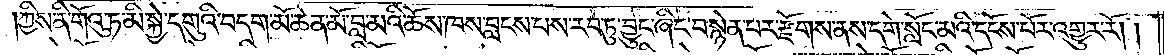།ཀྱིས་ནི་གོའུ་ཏ་མི་སྐྱེ་དགུའི་བདག་མོ་ཆེན་མོ་བླ་མའི་ཆོས་ཁས་བླངས་པས་རབ་ཏུ་བྱུང་ཞིང་བསྙེན་པར་རྫོགས་ནས་དགེ་སློང་མའི་དངོས་པོར་འགྱུར་རོ། །
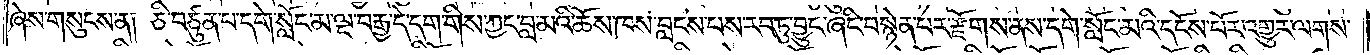ཞེས་གསུངས་ན། ཅི་བཙུན་པ་དགེ་སློང་མ་ལྔ་བརྒྱ་དེ་དག་གིས་ཀྱང་བླ་མའི་ཆོས་ཁས་བླངས་པས་རབ་ཏུ་བྱུང་ཞིང་བསྙེན་པར་རྫོགས་ནས་དགེ་སློང་མའི་དངོས་པོར་འགྱུར་ལགས་
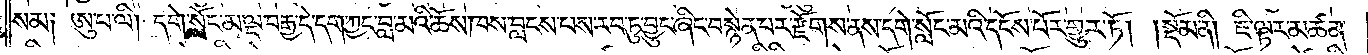སམ། ཨུ་པ་ལི། དགེ་སློང་མ་ལྔ་བརྒྱ་དེ་དག་ཀྱང་བླ་མའི་ཆོས་ཁས་བླངས་པས་རབ་ཏུ་བྱུང་ཞིང་བསྙེན་པར་རྫོགས་ནས་དགེ་སློང་མའི་དངོས་པོར་གྱུར་ཏོ།    །སྡོམ་ནི། ཇི་ལྟར་མཚན་
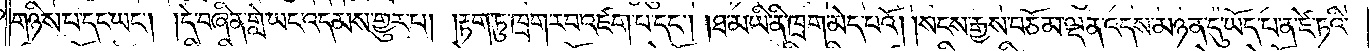གཉིས་པ་དང་ཡང༌། །དེ་བཞིན་གླེ་ཡང་འདམས་གྱུར་པ། །རྟག་ཏུ་ཁྲག་རབ་འཛག་པ་དང༌། ཐ་མ་ཡི་ནི་ཁྲག་མེད་པའོ། །སངས་རྒྱས་བཅོམ་ལྡན་འདས་མཉན་དུ་ཡོད་པ་ན་ཛེ་ཏའི་
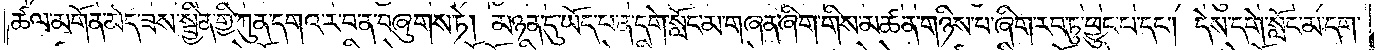ཚལ་མགོན་མེད་ཟས་སྦྱིན་གྱི་ཀུན་དགའ་ར་བ་ན་བཞུགས་ཏེ། མཉན་དུ་ཡོད་པ་ན་དགེ་སློང་མ་གཞན་ཞིག་གིས་མཚན་གཉིས་པ་ཞིག་རབ་ཏུ་ཕྱུང་པ་དང༌། དེས་དགེ་སློང་མ་དག་
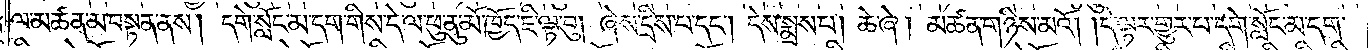ལ་མཚན་མ་བསྟན་ནས། དགེ་སློང་མ་དག་གིས་དེ་ལ་ཕུ་ནུ་མོ་ཁྱོད་ཇི་ལྟ་བུ། ཞེས་དྲིས་པ་དང༌། དེས་སྨྲས་པ། ཆེ་ཞེ། མཚན་གཉིས་མའོ། །དེ་ལྟར་གྱུར་པ་དགེ་སློང་མ་དག་
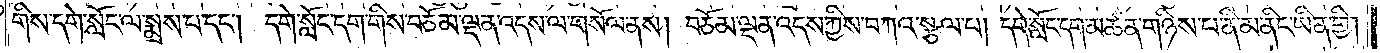གིས་དགེ་སློང་ལ་སྨྲས་པ་དང༌། དགེ་སློང་དག་གིས་བཅོམ་ལྡན་འདས་ལ་གསོལ་ནས། བཅོམ་ལྡན་འདས་ཀྱིས་བཀའ་སྩལ་པ། དགེ་སློང་དག་མཚན་གཉིས་པ་ནི་མ་ནིང་ཡིན་གྱི།
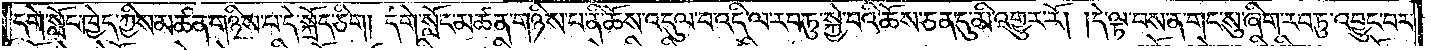དགེ་སློང་ཁྱེད་ཀྱིས་མཚན་གཉིས་པ་དེ་སྐྲོད་ཅིག །དགེ་སློང་མཚན་གཉིས་པ་ནི་ཆོས་འདུལ་པ་འདི་ལ་རབ་ཏུ་སྐྱེ་བའི་ཆོས་ཅན་དུ་མི་འགྱུར་རོ། །དེ་ལྟ་བས་ན་གང་སུ་ཞིག་རབ་ཏུ་འབྱུང་བར་
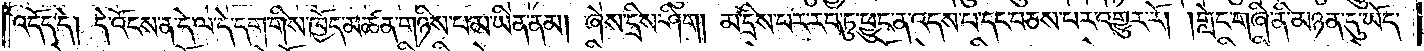འདོད་དེ། དེ་འོངས་ན་དེ་ལ་དེ་དག་གིས་ཁྱོད་མཚན་གཉིས་པ་མ་ཡིན་ནམ། ཞེས་དྲིས་ཤིག །མ་དྲིས་པར་རབ་ཏུ་ཕྱུང་ན་འདས་པ་དང་བཅས་པར་འགྱུར་རོ། །གླེང་གཞི་ནི་མཉན་དུ་ཡོད་
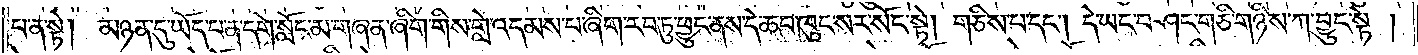པ་ན་སྟེ། མཉན་དུ་ཡོད་པ་ན་དགེ་སློང་མ་གཞན་ཞིག་གིས་གླེ་འདམས་པ་ཞིག་རབ་ཏུ་ཕྱུང་ནས་དེ་ཆབ་ཁུང་སར་སོང་སྟེ། གཅིས་པ་དང༌། དེ་ཡང་བཤང་གཅི་གཉིས་ཀ་བྱུང་སྟེ།
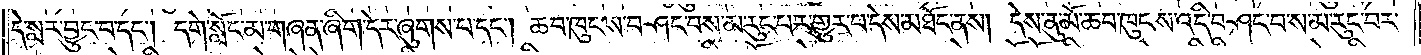དེ་སླར་བྱུང་བ་དང༌། དགེ་སློང་མ་གཞན་ཞིག་དེར་ཞུགས་པ་དང༌། ཆབ་ཁུང་ས་བཤང་བས་མ་རུང་པར་གྱུར་པ་དེས་མཐོང་ནས། དེས་ནུ་མོ་ཆབ་ཁུངས་འདི་བཤང་བ་ས་མ་རུང་བར་
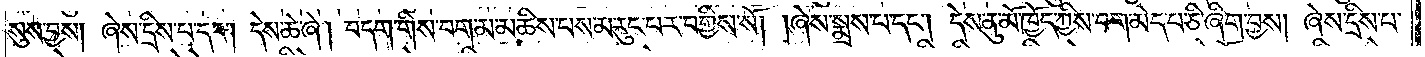སུས་བྱས། ཞེས་དྲིས་པ་དང༌། དེས་ཆེ་ཞེ། བདག་གིས་བག་མ་མཆིས་པས་མ་རུང་པར་བགྱིས་སོ། །ཞེས་སྨྲས་པ་དང༌། དེས་ནུ་མོ་ཁྱོད་ཀྱིས་བག་མེད་པ་ཅི་ཞིག་བྱས། ཞེས་དྲིས་པ་
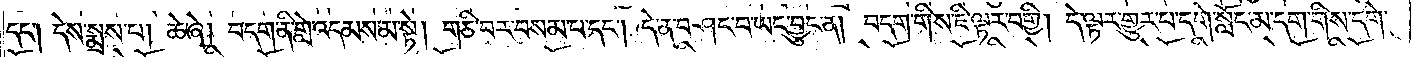དང༌། དེས་སྨྲས་པ། ཆེ་ཞེ། བདག་ནི་གླེ་འདམས་མ་སྟེ། གཅི་བར་བསམ་པ་དང༌། དེ་ན་བཤང་བ་ཡང་བྱུང་ན། བདག་གིས་ཇི་ལྟར་བགྱི། དེ་ལྟར་གྱུར་པ་དགེ་སློང་མ་དག་གིས་དགེ་
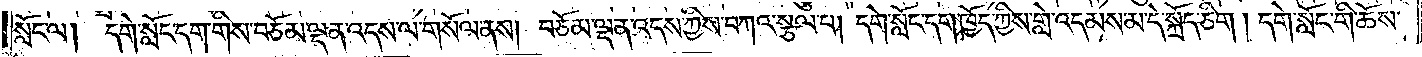སློང་ལ། དགེ་སློང་དག་གིས་བཅོམ་ལྡན་འདས་ལ་གསོལ་ནས། བཅོམ་ལྡན་འདས་ཀྱིས་བཀའ་སྩལ་པ། དགེ་སློང་དག་ཁྱོད་ཀྱིས་གླེ་འདམས་མ་དེ་སྐྲོད་ཅིག །དགེ་སློང་གི་ཆོས་
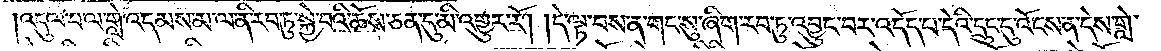འདུལ་བ་ལ་གླེ་འདམས་མ་ལ་ནི་རབ་ཏུ་སྐྱེ་བའི་ཆོས་ཅན་དུ་མི་འགྱུར་རོ། །དེ་ལྟ་བས་ན་གང་སུ་ཞིག་རབ་ཏུ་འབྱུང་བར་དོད་པ་དེའི་དྲུང་དུ་འོངས་ན་དེས་གླེ་
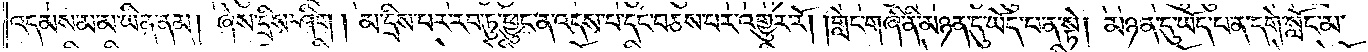འདམས་མ་མ་ཡིན་ནམ། ཞེས་དྲིས་ཤིག །མ་དྲིས་པར་རབ་ཏུ་ཕྱུང་ན་འདས་པ་དང་བཅས་པར་འགྱུར་རོ། །གླེང་གཞི་ནི་མཉན་དུ་ཡོད་པ་ན་སྟེ། མཉན་དུ་ཡོད་པ་ན་དགེ་སློང་མ་
